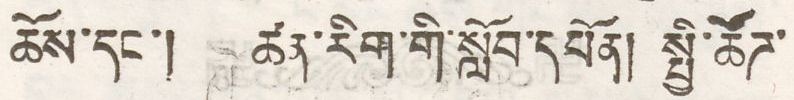ཆོས་དང་། ཚན་རིག་གི་སློབ་དཔོན། སྤྱི་ཚོཌ་
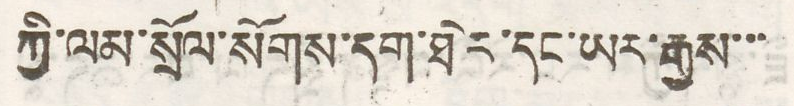ཀྱི་ལམ་སྲོལ་སོགས་དག་ཐེར་དང་ཡར་རྒྱས་་་
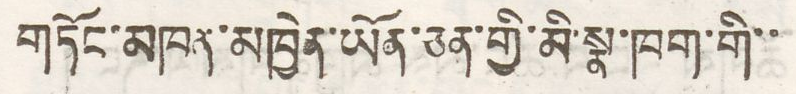གཏོང་མཁན་མཁྱེན་ཡོན་ཅན་གྱི་མི་སྣ་ཁག་གི་་
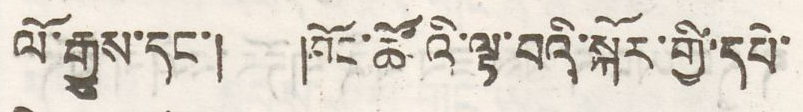ལོ་རྒྱུས་དང་། ཁོང་ཚོའི་ལྟ་བའི་སྐོར་གྱི་དཔེ་
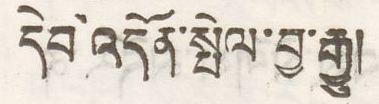དེབ་འདོན་སྤེལ་བྱ་རྒྱུ།
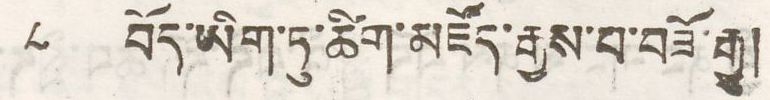༨ བོད་ཡིག་ཏུ་ཚིག་མཛོད་རྒྱས་པ་བཟོ་རྒྱུ།
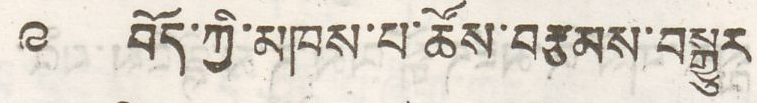༩ བོད་ཀྱི་མཁས་པ་ཚོས་བརྩམས་བསྒྱུར
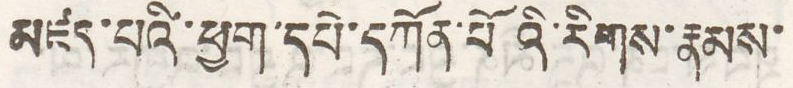མཛད་པའི་ཕྱག་དཔེ་དཀོན་པོའི་རིགས་རྣམས་
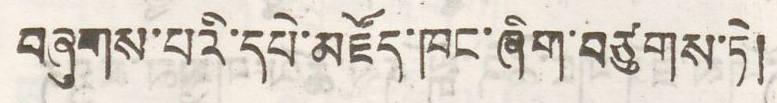བཞུགས་པའི་དཔེ་མཛོད་ཁང་ཞིག་བཙུགས་ཏེ།
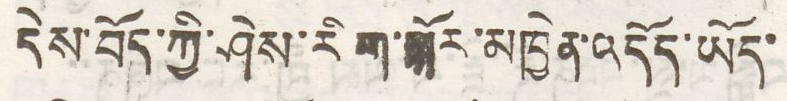དེས་བོད་ཀྱི་ཤེས་རིག་སྐོར་མཁྱེན་འདོད་ཡོད་
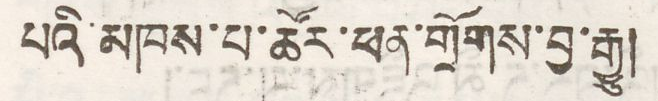པའི་མཁས་པ་ཚོར་ཕན་གྲོགས་བྱ་རྒྱུ།
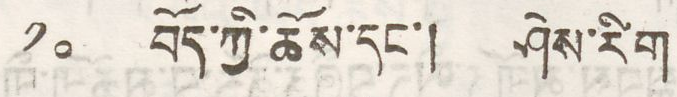༡༠ བོད་ཀྱི་ཆོས་དང་། ཤེས་རིག
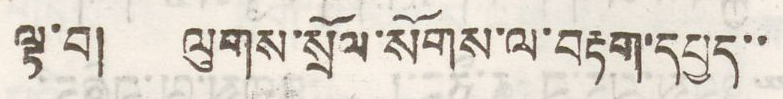ལྟ་བ། ལུགས་སྲོལ་སོགས་ལ་བརྟག་དཔྱད་་
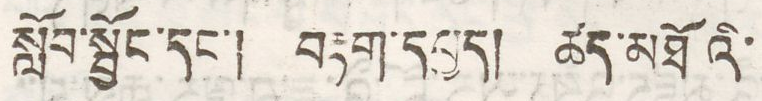སློབ་སྦྱོང་དང་། བརྟག་དཔྱད། ཚད་མཐོའི་
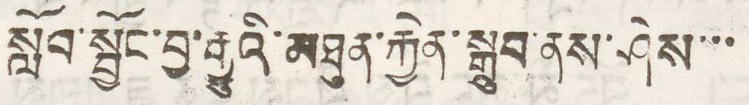སློབ་སྦྱོང་བྱ་རྒྱུའི་མཐུན་རྐྱེན་སྒྲུབ་ནས་ཤེས་་་
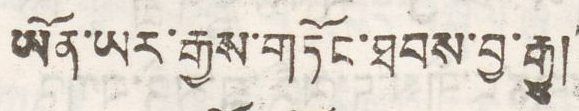ཡོན་ཡར་རྒྱས་གཏོང་ཐབས་བྱ་རྒྱུ།
